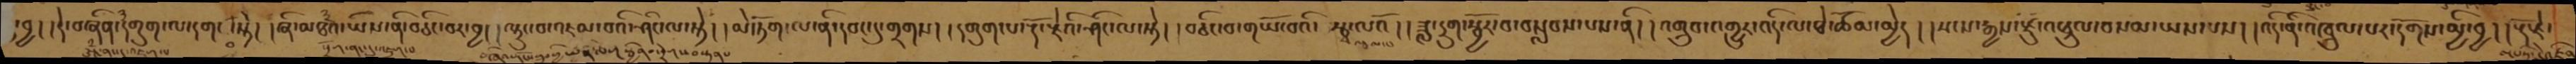།བྱ། །དེ་བཞིན་དགུག་ལ་དག་པ་སྟེ། །ཞི་མཐའ་ཡིས་ནི་བཅིང་བར་བྱ། །ལྟུང་བ་འཇམ་བའི་ཤིང་ལ་སྟེ། །མེ་ཏོག་ལ་ནི་དབང་དུ་གྲགས། །དགུག་པ་རྡོ་རྗེའི་ཤིང་ལ་སྟེ། །བཅིང་བ་གཡོ་བའི་རྩྭ་ལའོ། །ཟླ་དྲུག་སྦྱོར་བ་བསླབས་པས་ནི། །འགྲུབ་འགྱུར་འདི་ལ་ཐེ་ཚོམ་མྱེད། །སངས་རྒྱས་རྫུ་འཕྲུལ་བསམ་ཡས་པས། །འདི་ནི་འཁྲུལ་པར་དགོས་མྱི་བྱ། །རྡོ་རྗེ་
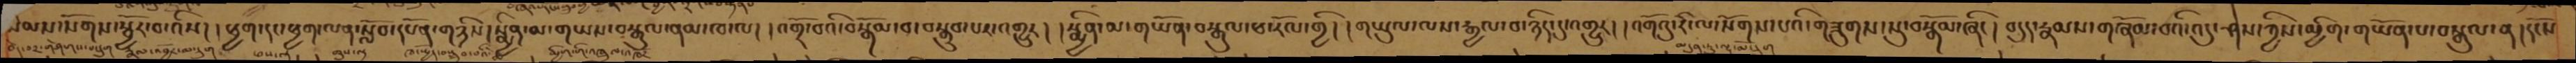སེམས་སོགས་སྦྱོར་བ་འིས། །ཕྱག་དང་ཕྱག་ལན་སློབ་དཔོན་གཉིས།སྨྱིན་མ་གཡས་བསྒུལ་ནམ་ཁ་ལ། །འགྲོ་བའི་བསྒོམ་བ་བསྒྲུབ་པར་འགྱུར། །སྨྱིན་མ་གཡོན་བསྒུལ་ཕ་རོལ་གྱི། །གཡུལ་ལས་རྒྱལ་བ་ཉིད་དུ་འགྱུར། །འགོའུ་རི་ལ་སོགས་པའི་གཟུགས་སུ་བསྒོམ་ཞིང ། བདུད་རྣམས་གཞོམ་བའི་འདུ་ཤེས་ཀྱིས་མྱིག་གཡོན་པ་བསྒུལ་ན།དངོས
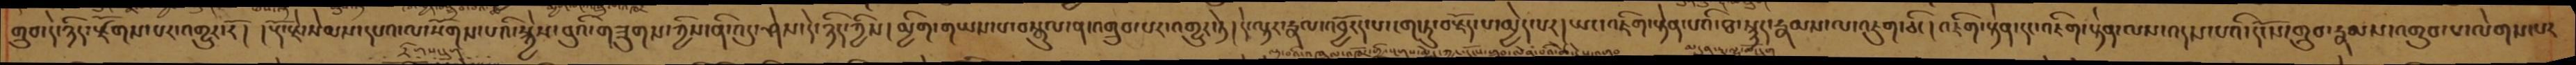གྲུབ་དེ་ཉིད་རྫོགས་པར་འགྱུར་རོ། །རྡོ་རྗེ་སེམས་དཔའ་ལ་སོགས་པའི་སྐྱེས་བུའི་གཟུགས་ཀྱིས་ནི་འདུ་ཤེས་དེ་ཉིད་ཀྱིས། མྱིག་གཡས་པ་བསྒུལ་ན་འགྲུབ་པར་འགྱུར་ཏེ། དེ་ལྟར་རྣལ་འབྱོརད་པ་ངག་ཏུ་བརྗོད་པ་མྱེད་པར། ཡང་འཇིག་རྟེན་པའི་ཐ་སྙད་རྣམས་ལ་འཇུག་ཅིང། འཇིག་རྟེན་དང་འཇིག་རྟེན་ལས་འདས་པའི་དངོས་གྲུབ་རྣམས་འགྲུབ་པ་ལེགས་པར་
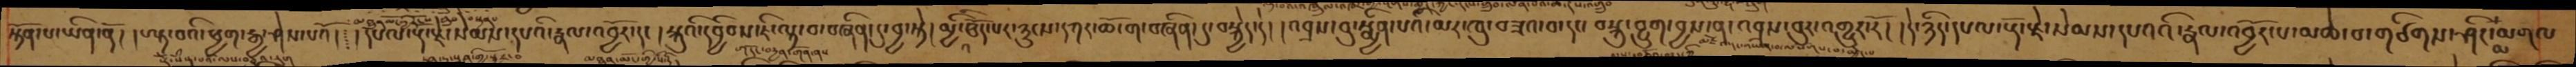སྟོན་པ་ཡིན་ནོ། །ལྟ་བའི་ཕྱག་རྒྱ་ཤེས་པའོ། དཔལ་རྡོ་རྗེ་སེམས་དཔའི་རྣལ་འབྱོར་དང། །སྐུའི་དབྱིབས་ཇི་ལྟ་བ་བཞིན་དུ་བྱ་སྟེ། །མྱིའི་ཐོད་པར་ཉུངས་དཀར་ཆོ་ག་བཞིན་དུ་བསྐྱེད་དེ། །འབྲས་བུ་སྨྱིན་པའི་མར་ཁུ་བཟའ་བ་དང་བསྐུ་བྱུག་བྱས་ན་འབྲས་བུར་འགྱུར་རོ། །དེ་ཉིད་དཔལ་རྡོ་རྗེ་སེམས་དཔའའི་རྣལ་འབྱོར་པ་མཆེ་བ་གཙིགས་ཤིང་མ་མགལ
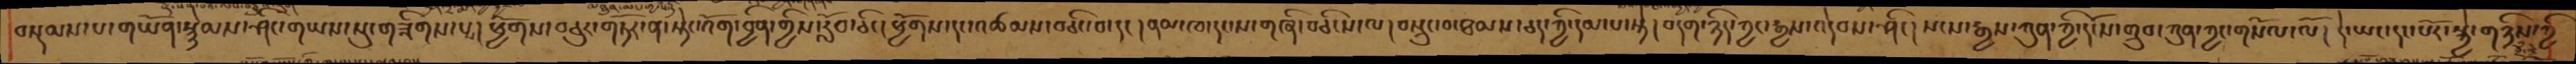བསྡམས་པ་གཡོན་སྙེམས་ཤིང་གཡས་སུ་གཟིགས་པས། ཕྱོགས་བཅུར་གཏོར་ན་སྟེང་འོག་བྱིན་གྱིས་རློབ་ཅིང་།  ཕྱོགས་དང་འཚམས་བཅིང་བ་དང། ནམ་ཁ་དང་ས་གཞི་བཅིངས་ལ། བསྲུང་བ་ཐམས་ཅད་ཀྱི་དམ་པ་སྟེ། བདག་ཉིད་ཀྱང་རྒྱས་འདེབས་ཤིང། སངས་རྒྱས་ཀུན་ཀྱི་དངོས་གྲུབ་ཀུན་ཀྱང་གསོལ་ལོ། དེ་ཡང་དང་པོར་སྐྱེ་གཉིས་ཀྱི
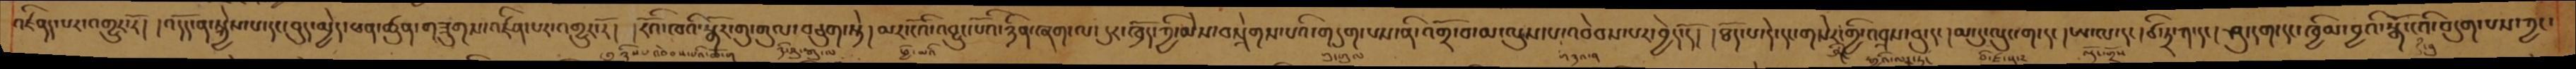འཛིནད་པར་འགྱུར་རོ། །འདོད་ན་སྐྱེས་པ་དང་བུད་མྱེད་ཕན་ཚུན་གཟུགས་འཛིན་པར་འགྱུར་རོ། །རོའི་ཁའི་སྒོར་གུ་གུལ་བཅུག་སྟེ། མར་ངོའི་འབྱུང་པོའི་ཉིན་ཞགས་ལ། དུར་ཁྲོད་ཀྱི་མེས་བསྲེགས་པའི་གདུག་པས་ནི་འགྲོ་བ་མ་ལུས་པ་འབེབས་པར་བྱེད་དོ། །ཐོད་པ་དེ་དང་གསེར་གྱི་འབྲས་བུ་དང། །མ་དུ་ལུང་ག་དང། །ཨ་ལ་དང། ཙི་ཏྲ་ཀ་དང། ཤུ་དག་དང་ཁྱིམ་བྱའི་སྒོ་ངའི་བདུག་པས་ཀྱང་
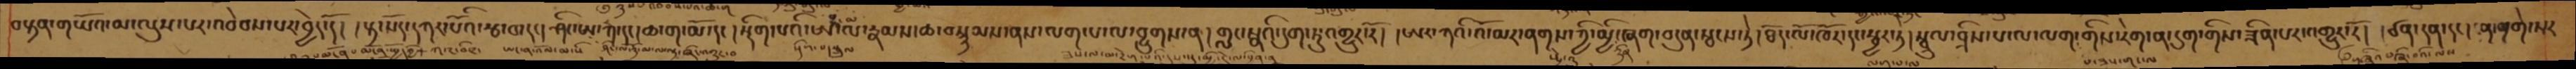བསྟན་གཡོའ་མ་ལུས་པར་འབེབས་པར་བྱེད་དོ། །སྟ་སོད་དཀར་པོའི་རྩ་བ་དང། ཤིང་ཨ་ཀ་དང།ཆ་ག་མོ་དང། སྡིག་པའི་ཨཾ་ལ་རྣམས་ཆ་བསྙམས་ནས་ལག་པ་ལ་བྱུགས་ན། གླང་སྣའི་དུག་ཏུ་འགྱུར་རོ། །ཨར་ཀའི་འོ་མར་ནགས་ཀྱི་མྱི་ཞག་བདུན་སྦངས་ཏེ། ཐོད་ལོ་ཁོར་དང་སྦྱར་ཏེ། སྦྲུལ་བྲིས་པ་ལ་ལག་གིས་རེག་ན་དུག་གིས་ཟིན་པར་འགྱུར་རོ། ཙན་དན་དང། ཤ་བ།གེ་སར
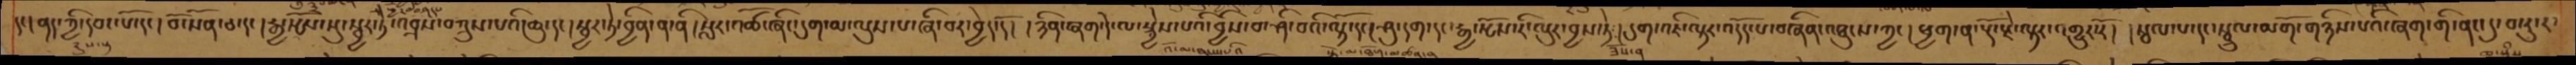དང། ནད་ཀྱི་དབང་པོ་དང། བོ་སོན་ཅ་དང། རྒྱ་སྤོས་སུ་སྦྱར་ཏེ་འབྲས་བཀྲུས་པའི་ཆུ་དང། སྦྱར་ཏེ་བྱིན་ན་ནི། སླར་འཚོ་ཞིང་དུག་མ་ལུས་པ་ཞི་བར་བྱེད་དོ། །ཉིན་ཞག་དེ་ལ་སྐྱེས་པའི་བྱིས་པ་ཤི་བའི་ལྟོ་དང། ཤུ་དག་དང་རྒྱ་སྤོས་རི་ལུར་བྱས་ཏེ། དུག་འཇི་ལྟར་འདོད་པ་བཞིན་འཐུངས་ཀྱང། ཕྱག་ན་རྡོ་རྗེ་ལྟར་འགྱུར་རོ། སྦལ་པ་དང་སྦྲུལ་མགོ་གཉིས་པའི་ཞག་གི་ནང་དུ་བསྡུ་ར་
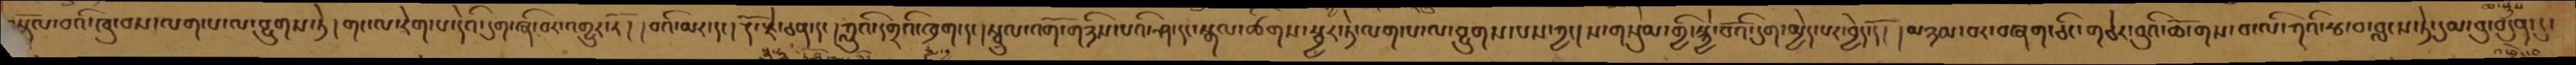བསྟོལ་བའི་ཁུ་བས་ལག་པ་ལ་བྱུགས་ཏེ། གང་ལ་རེག་པ་དེའི་དུག་ཞི་བར་འགྱུར་རོ། །བའི་མར་དང། རྡོ་རྗེ་ཅན་དང། །ཀླུའི་དགྲའི་ཁྲག་དང། སྦྲུལ་འགོ་གཉིས་པའི་ཤ་དང་སྒལ་ཚིགས་སྦྱར་ཏེ་ལག་པ་ལ་བྱུགས་པས་ཀྱང། ས་གསུམ་གྱི་སྐྱེ་བོའི་དུག་མྱེད་པར་བྱེད་དོ། །མཉམ་པར་བཞག་ཅིང་གཅེར་བུའི་ཆོ་གས་བ་ལི་ཀའི་རྩ་བ་བླངས་ཏེ་དུམ་བུ་བདུན་དུ་
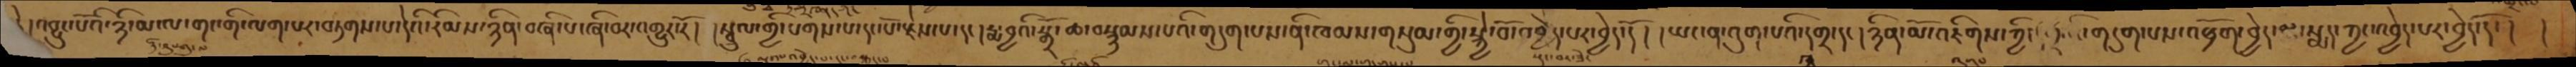། །འབྱུང་པོའི་ཉི་མ་ལ་གང་གི་ལག་པར་བཏགས་པ་དེའི་རིམས་ཉིན་བཞི་པ་ཞི་བར་འགྱུར་རོ། །སྦྲུལ་གྱི་པགས་པ་དང་པོ་རྗེས་པ་དང། རྨ་བྱའི་སྒྲོ་ཆ་བསྙམས་པའི་གདུག་པས་ནི་ཁམས་གསུམ་གྱི་སྐྱེ་བོ་འབྱེད་པར་བྱེད་དོ། །ཡང་ན་འུག་པའི་དགྲ་དང། ཉིན་མོ་འཇིགས་ཀྱི་གདུག་པས་འཕྲོག་བྱེད་མ་སྨད་ཀྱང་འབྱེད་པར་བྱེད་དོ་། །
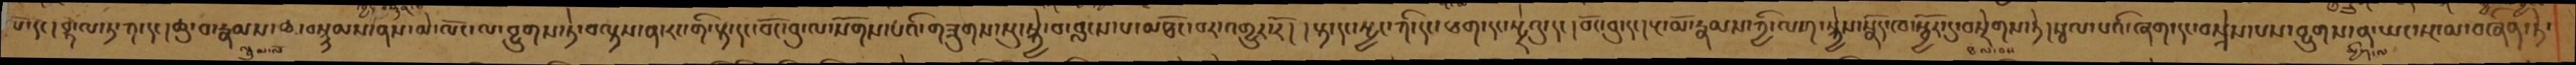པོ་དང། བྷ་ལ་ཏ་ཀ་དང། ཆུ་བ་རྣམས་ཆ་བསྙམས་ནས་མེ་ལོང་ལ་བྱུགས་ཏེ་བལྟས་ན་རང་གི་རྟ་དང་བོང་བུ་ལ་སོགས་པའི་གཟུགས་སུ་སྐྱེ་བ་བླངས་པ་མཐོང་བར་འགྱུར་རོ། །རྟ་དང་སྤྱང་ཀི་དང་ཕག་དང་སྤྲེའུ་དང། བོང་བུ་དང། རྔ་མོ་རྣམས་ཀྱི་ལག་སྐྱེས་སྣོད་ཁ་སྦྱོར་དུ་བསྲེགས་ཏེ། སྦལ་པའི་ཞག་དང་བསྲེས་པས་བྱུགས་ན་ཡང་སྔ་མ་བཞིན་ཏེ་
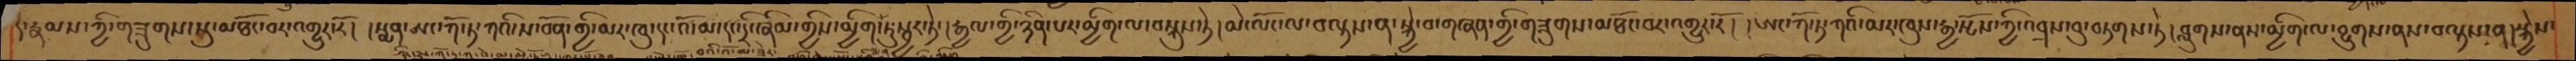དེ་རྣམས་ཀྱི་གཟུགས་སུ་མཐོང་བར་འགྱུར་རོ། །སྨན་ཨང་ཀོ་ཏ་ཀའི་ས་བོན་གྱི་མར་ཁུ་དང་འོ་མ་དང་དྲི་ཞིམ་གྱིས་མྱིག་ཏུ་སྦྱར་ཏེ་། རྒྱལ་གྱི་ཉིན་པར་མྱིག་ལ་བསྐུས་ཏེ། མེ་ལོང་ལ་བལྟས་ན་སྐྱེ་བ་གཞན་གྱི་གཟུགས་མཐོང་བར་འགྱུར་རོ། །ཨང་ཀོ་ཏ་ཀའི་མར་ཁུས་རྒྱ་སྤོས་ཀྱི་འབྲས་བུ་བཏགས་ཏེ། བླུགས་ནས་མྱིག་ལ་བྱུགས་ནས་བལྟས་ན། སྐྱེས་
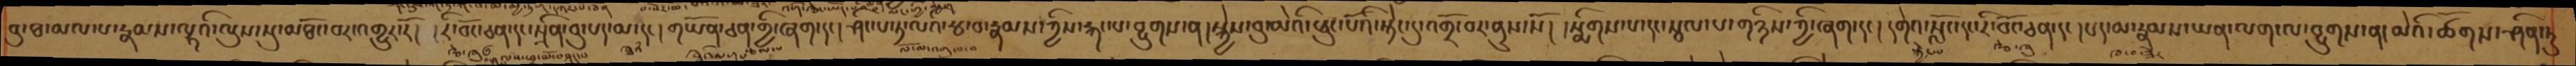བུ་ཐ་མལ་པ་རྣམས་ལྷའི་ལུས་སུ་མཐོང་བར་འགྱུར་རོ། །རི་བོང་ཅན་དང་སྲིན་བུ་པད་མ་དང། གཡོན་ཅན་གྱི་ཞག་དང། ཤིང་པ་ཏ་ལའི་རྩ་བ་རྣམས་ཀྱིས་རྐང་པ་བྱུགས་ན། སྐྱེས་བུ་མེའི་ཕུང་པོའི་སྟེང་དུ་འགྲོ་བར་ནུས་སོ། །སྨིགས་པ་དང་སྦལ་པ་གཉིས་ཀྱི་ཞག་དང། དགེའ་སློང་དང་རི་བོང་ཅན་དང། པད་མ་རྣམས་ཡན་ལག་ལ་བྱུགས་ན་མེའི་ཚོགས་ཤིན་ཏུ
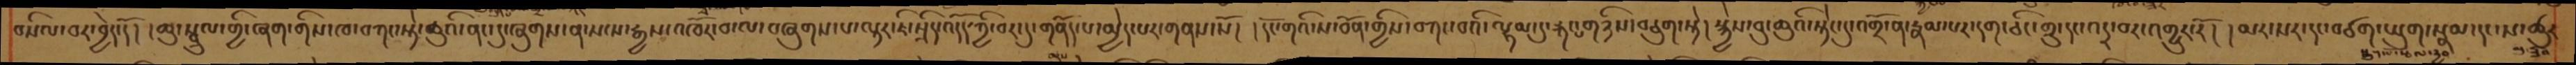བསིལ་བར་བྱེད་དོ། །ཆུ་སྦྲུལ་གྱི་ཞག་གིས་ཁ་བཀང་སྟེ་ཆུའི་ནང་དུ་ཞགས་ན་སངས་རྒྱས་འཁོར་བ་ལ་བཞུགས་པ་ལྟར་ཇི་སྲིད་འདོད་ཀྱི་བར་དུ་གནོད་པ་མྱེད་པར་གནས་སོ། །དོང་གའི་ས་བོན་གྱིས་བཀང་བའི་ལྷམ་དུ་རྐང་པ་གཉིས་བཅུག་སྟེ། སྐྱེས་བུ་ཆུའི་སྟེང་དུ་འགྲོ་ན་རྣམ་པར་དག་ཅིང་གྲུ་དང་འདྲ་བར་འགྱུར་རོ། །མར་སར་དང་བཙག་ཡུག་སྣམ་དང་ས་ཆུར
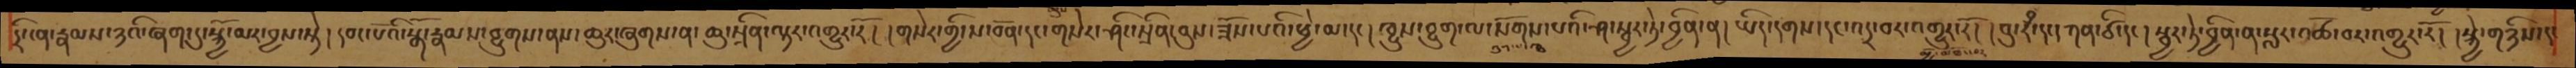དྲི་ངན་རྣམས་ཉའི་ཞག་དུ་སྐྱོ་མར་བྱས་སྟེ། དབང་པོའི་སྒོ་རྣམས་བྱུགས་ནས་ཆུར་ཞུགས་ན་ཆུ་སྲིན་ལྟར་འགྱུར་རོ། །གསེར་གྱི་ས་བོན་དང་གསེར་ཤིང་སྲིན་བུས་ཟོས་པའི་ཕྱེ་མ་དང། ཁྱུས་བྱུག་ལ་སོགས་པའི་ཤ་སྦྱར་ཏེ་བྱིན་ན། ཡིད་དགས་དང་འདྲ་བར་འགྱུར་རོ། །བུ་རཾ་དང།ཀན་ཙི་དང། སྦྱར་ཏེ་བྱིན་ན་སླར་འཚོ་བར་འགྱུར་རོ། །སྐྱེ་གཉིས་དང
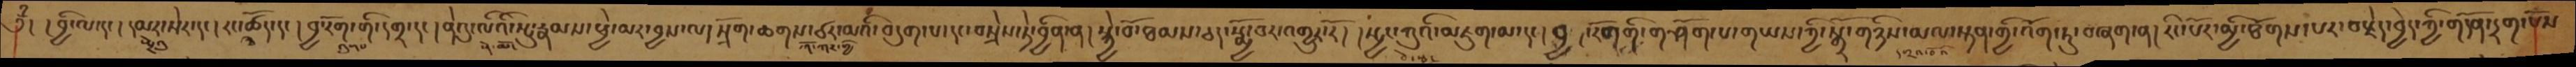༄ྃ། །བྱི་ལ་དང། དམར་སེར་དང། རང་ཚོད་དང། བྱ་རོག་གི་དགྲ་དང། ནེའུ་ལིའི་སྤུ་རྣམས་ཕྱེ་མར་བྱས་ལ། སྲོག་ཆགས་ཙར་མའི་བདུག་པ་དང་བསྲེས་ཏེ་བྱིན་ན། སྐྱེ་བོ་ཐམས་ཅད་སྨྱོ་བར་འགྱུར་རོ། །སྤྱང་ཀུའི་མཇུག་མ་དང། བྱ་རོག་གི་གཤོག་པ་གཡས་ཀྱི་སྒྲོ་གཉིས་མལ་སྟན་གྱི་འོག་ཏུ་བཞག་ན། རིང་པོར་མྱི་ཐོགས་པར་བརྗེད་བྱེད་ཀྱི་གདོན་དྲག་པོས
